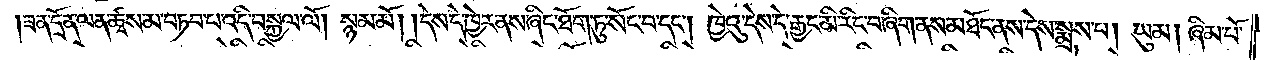ཟན་དྲོན་ལན་ཚྭས་མ་བཏབ་པ་འདི་བསྐྱལ་ལོ། སྙམ་མོ། །དེས་དེ་ཁྱེར་ནས་ཞིང་ཐོག་ཏུ་སོང་བ་དང༌། ཁྱེའུ་དེས་དེ་རྒྱང་མི་རིང་བ་ཞིག་ནས་མཐོང་ནས་དེས་སྨྲས་པ། ཡུམ། ཞིམ་པོ་
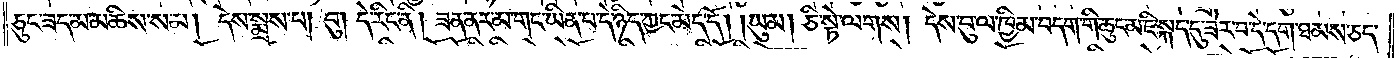ཅུང་ཟད་མ་མཆིས་སམ། དེས་སྨྲས་པ། བུ། དེ་རིང་ནི། ཟན་ནར་མ་གང་ཡིན་པ་དེ་ཉིད་ཀྱང་མེད་དོ། །ཡུམ། ཅི་སྟེ་ལགས། དེས་བུ་ལ་ཁྱིམ་བདག་གི་ཆུང་མ་ཇི་སྐད་དུ་ཟེར་བ་དེ་དག་ཐམས་ཅད་
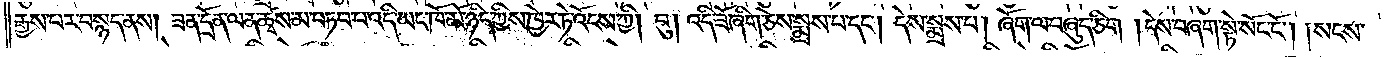རྒྱས་པར་བསྙད་ནས། ཟན་དྲོན་ལན་ཚྭས་མ་བཏབ་པ་འདི་ཡང་ཁོ་མོ་ཉིད་ཀྱིས་ཁྱེར་ཏེ་འོངས་ཀྱི། བུ། འདི་ཟོ་ཞིག་ཅེས་སྨྲས་པ་དང༌། དེས་སྨྲས་པ། ཞོག་ལ་བཞུད་ཅིག །དེས་བཞག་སྟེ་སོང་ངོ༌། །སངས་
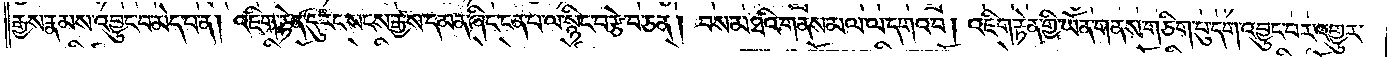རྒྱས་རྣམས་འབྱུང་བ་མེད་པ་ན། འཇིག་རྟེན་དུ་རང་སངས་རྒྱས་དམན་ཞིང་ངན་པ་ལ་སྙིང་བརྩེ་བ་ཅན། བས་མཐའི་གནས་མལ་ལ་དགའ་བ། འཇིག་རྟེན་གྱི་ཡོན་གནས་གཅིག་པུ་དག་འབྱུང་བར་འགྱུར་
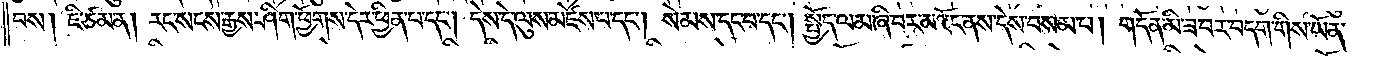བས། ཇི་ཙམ་ན། རང་སངས་རྒྱས་ཤིག་ཕྱོགས་དེར་ཕྱིན་པ་དང༌། དེས་དེ་ལུས་མཛེས་པ་དང༌། སེམས་དང་བ་དང༌། སྤྱོད་ལམ་ཞི་བར་མཐོང་ནས་དེས་བསམ་པ། གདོན་མི་ཟ་བར་བདག་གིས་ཡོན་
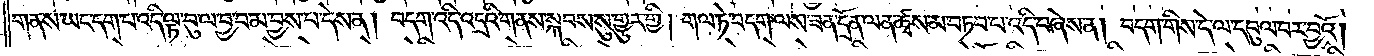གནས་ཡང་དག་པ་འདི་ལྟ་བུ་ལ་བྱ་བ་མ་བྱས་པ་དེས་ན། བདག་འདི་འདྲའི་གནས་སྐབས་སུ་གྱུར་གྱི། གལ་ཏེ་བདག་ལས་ཟན་དྲོན་ལན་ཚྭས་མ་བཏབ་པ་འདི་བཞེས་ན། བདག་གིས་དེ་ལ་དབུལ་བར་བྱའོ།
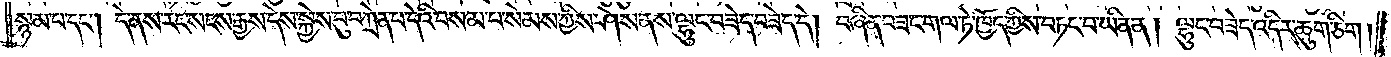སྙམ་པ་དང༌། དེ་ནས་རང་སངས་རྒྱས་དེས་སྐྱེས་བུ་བཀྲེན་པ་དེའི་བསམ་པ་སེམས་ཀྱིས་ཤེས་ནས་ལྷུང་བཟེད་བཟེད་དེ། བཞིན་བཟང་གལ་ཏེ་ཁྱོད་ཀྱིས་བཏང་བ་ཡིན་ན། ལྷུང་བཟེད་འདིར་ཆུག་ཅིག།
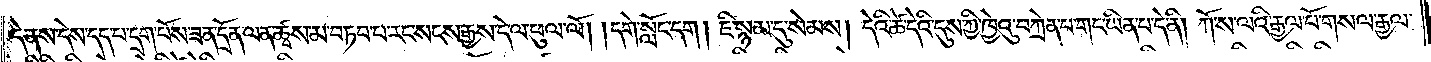དེ་ནས་དེས་དད་པ་དྲག་པོས་ཟན་དྲོན་ལན་ཚྭས་མ་བཏབ་པ་རང་སངས་རྒྱས་དེ་ལ་ཕུལ་ལོ། །དགེ་སློང་དག །ཇི་སྙམ་དུ་སེམས། དེའི་ཚེ་དེའི་དུས་ཀྱི་ཁྱེའུ་བཀྲེན་པ་གང་ཡིན་པ་དེ་ནི། ཀོ་ས་ལའི་རྒྱལ་པོ་གསལ་རྒྱལ་
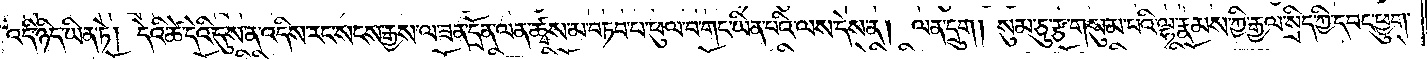འདི་ཉིད་ཡིན་ཏེ། དེའི་ཚེ་དེའི་དུས་ན་འདིས་རང་སངས་རྒྱས་ལ་ཟན་དྲོན་ལན་ཚྭས་མ་བཏབ་པ་ཕུལ་བ་གང་ཡིན་པའི་ལས་དེས་ན། ལན་དྲུག །སུམ་ཅུ་རྩ་གསུམ་པའི་ལྷ་རྣམས་ཀྱི་རྒྱལ་སྲིད་ཀྱི་དབང་ཕྱུག་
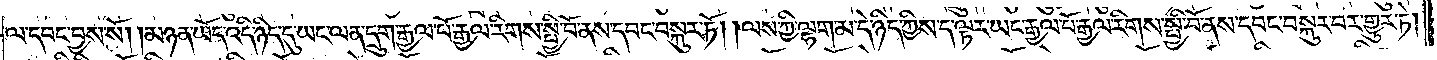ལ་དབང་བྱས་སོ། །མཉན་ཡོད་འདི་ཉིད་དུ་ཡང་ལན་དྲུག་རྒྱལ་པོ་རྒྱལ་རིགས་སྤྱི་བོ་ནས་དབང་བསྐུར་ཏོ། །ལས་ཀྱི་ལྷག་མ་དེ་ཉིད་ཀྱིས་དེ་ལྟར་ཡང་རྒྱལ་པོ་རྒྱལ་རིགས་སྤྱི་བོ་ནས་དབང་བསྐུར་བར་གྱུར་ཏེ།
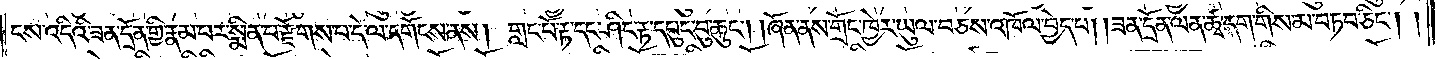ངས་འདིའི་ཟན་དྲོན་གྱི་རྣམ་པར་སྨིན་པ་རྫོགས་པ་དེ་ལ་དགོངས་ནས། གླང་པོ་རྟ་དང་ཤིང་རྟ་དཔུང་བུ་ཆུང༌། །ཞོན་ནས་གྲོང་ཁྱེར་ཡུལ་བཅས་འཁོལ་བྱེད་པ། །ཟན་དྲོན་ལན་ཚྭ་དག་གིས་མ་བཏབ་ཅིང༌། །
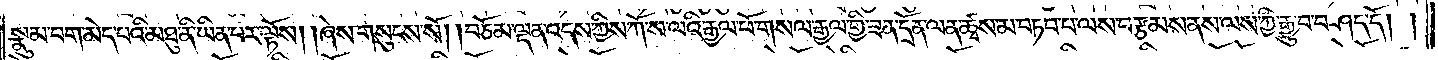སྣུམ་བག་མེད་པའི་མཐུ་ནི་ཡིན་པར་ལྟོས། །ཞེས་གསུངས་སོ། །བཅོམ་ལྡན་འདས་ཀྱིས་ཀོ་ས་ལའི་རྒྱལ་པོ་གསལ་རྒྱལ་གྱི་ཟན་དྲོན་ལན་ཚྭས་མ་བཏབ་པ་ལས་བརྩམས་ནས་ལས་ཀྱི་རྒྱུ་བཤད་དོ། །
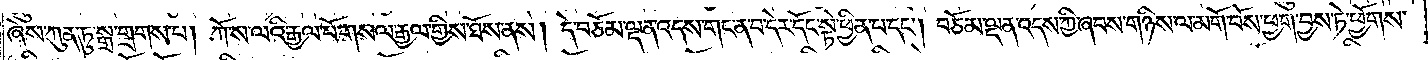ཞེས་ཀུན་ཏུ་སྒྲ་གྲགས་པ། ཀོ་ས་ལའི་རྒྱལ་པོ་གསལ་རྒྱལ་གྱིས་ཐོས་ནས། དེ་བཅོམ་ལྡན་འདས་གང་ན་བ་དེར་དོང་སྟེ་ཕྱིན་པ་དང༌། བཅོམ་ལྡན་འདས་ཀྱི་ཞབས་གཉིས་ལ་མགོ་བོས་ཕྱག་བྱས་ཏེ་ཕྱོགས་
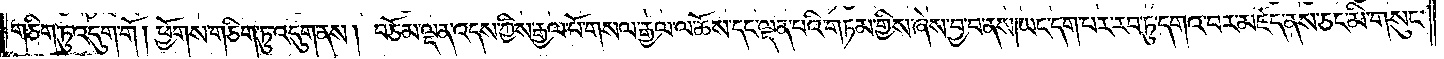གཅིག་ཏུ་འདུག་གོ། ཕྱོགས་གཅིག་ཏུ་འདུག་ནས། བཅོམ་ལྡན་འདས་ཀྱིས་རྒྱལ་པོ་གསལ་རྒྱལ་ལ་ཆོས་དང་ལྡན་པའི་གཏམ་གྱིས་ཞེས་བྱ་བ་ནས། ཡང་དག་པར་རབ་ཏུ་དགའ་བར་མཛད་ནས་ཅང་མི་གསུང་
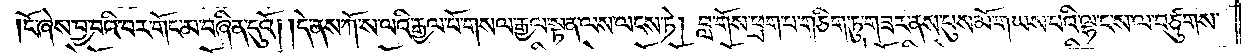ངོ་ཞེས་བྱ་བའི་བར་གོང་མ་བཞིན་དུའོ། །དེ་ནས་ཀོ་ས་ལའི་རྒྱལ་པོ་གསལ་རྒྱལ་སྟན་ལས་ལངས་ཏེ། བླ་གོས་ཕྲག་པ་གཅིག་ཏུ་གཟར་ནས་པུས་མོ་གཡས་པའི་ལྷ་ང་ས་ལ་བཙུགས་
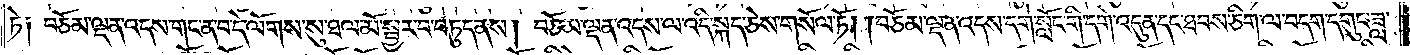ཏེ༑ བཅོམ་ལྡན་འདས་གང་ན་བ་དེ་ལོགས་སུ་ཐལ་མོ་སྦྱར་བ་བཏུད་ནས། བཅོམ་ལྡན་འདས་ལ་འདི་སྐད་ཅེས་གསོལ་ཏོ། །བཅོམ་ལྡན་འདས་དགེ་སློང་གི་དགེ་འདུན་དང་ཐབས་ཅིག་ལ་བདག་དགུང་ཟླ་
